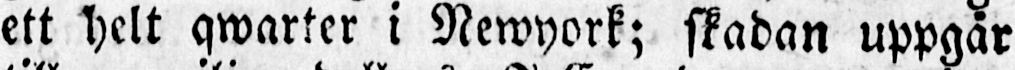ett helt qwarter i Newyork; skadan uppgår
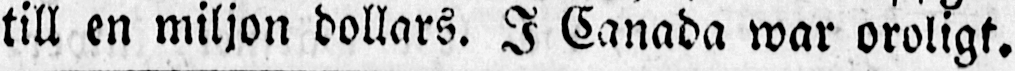till en miljon dollars. I Canada war oroligt.
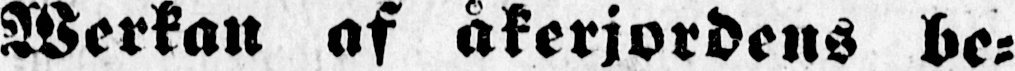Werkan af åkerjordens be-
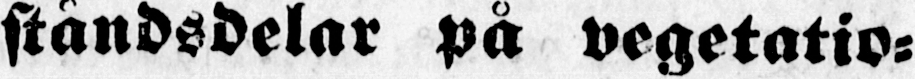ståndsdelar på vegetatio-
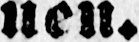nen.
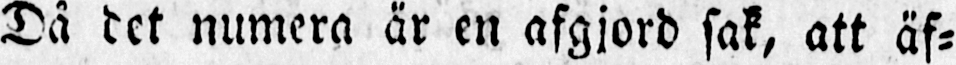Då det numera är en afgjord sak, att äf-
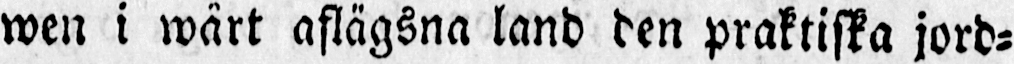wen i wårt aflägsna land den praktiska jord-
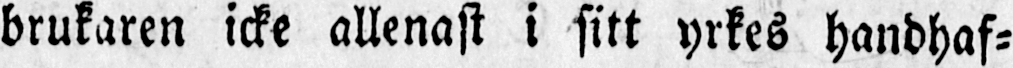brukaren icke allenast i sitt yrkes handhaf-
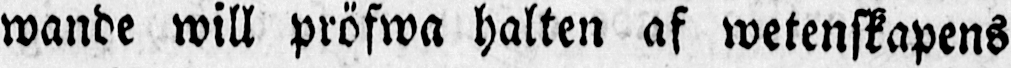wande will pröfwa halten af wetenskapens
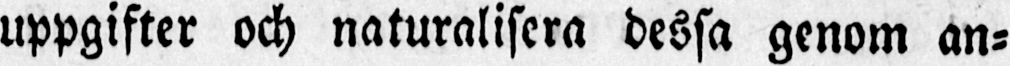uppgifter och naturalisera dessa genom an-
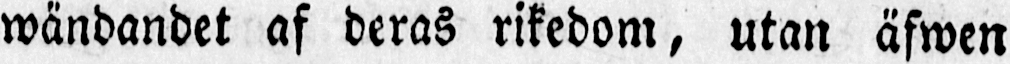wändandet af deras rikedom, utan äfwen
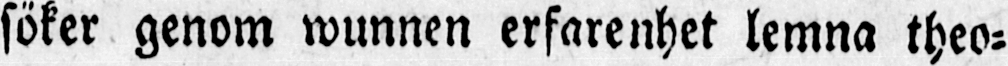söker genom wunnen erfarenhet lemna theo-
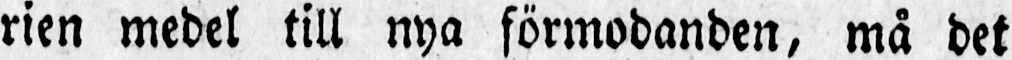rien medel till nya förmodanden, må det
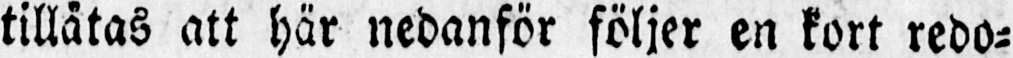tillåtas att här nedanför följer en kort redo-
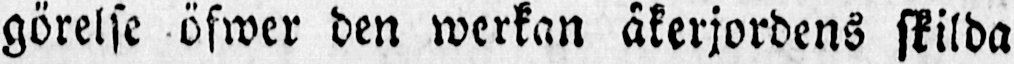görelse öfwer den werkan åkerjordens skilda
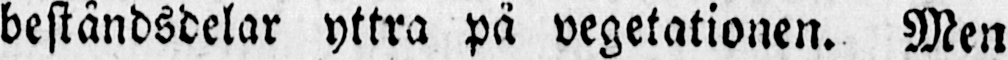beståndsdelar yttra på vegetationen. Men
